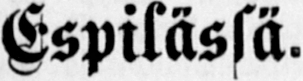Espilässä.
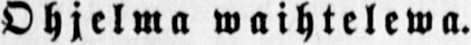Ohjelma waihtelewa.
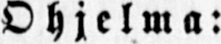Ohjelma:
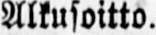Alkusoitto.
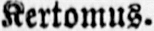Kertomus-
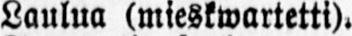Laulua (mieskwartetti).
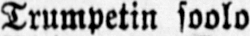Trumpetin soolo.
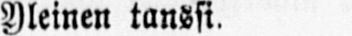Yleinen tanssi.
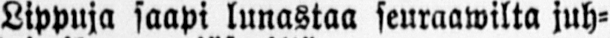Lippuja saapi lunastaa seuraawilta juh-
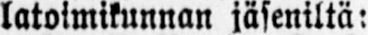latoimikunnan jäseniltä:
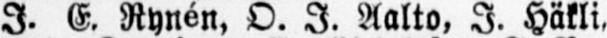I. E. Rynén, O. I. Aalto, I. Häkli.
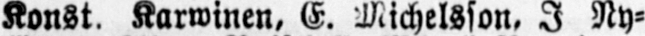Konst. Karwinen, E. Michelsson. I Ny-
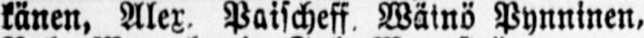känen, Alex Paischeff Wäinö Pynninen,
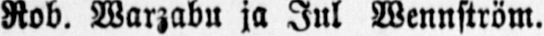Rob. Warzabu ja Jul Wennström.
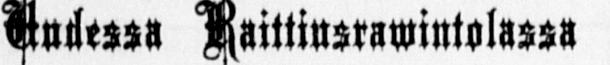Uudessa Raittiusrawintolassa
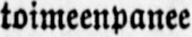toimeenpanee
